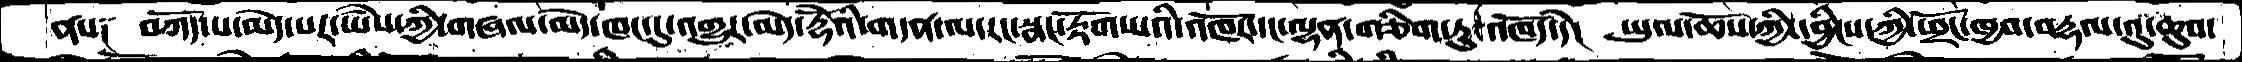ནས༑  བཀོད་པ་མེད་པར་ཡཻས་ཀྱི་གཞལ་མེད་ཁང་དུ་འགྱུར་མེད་རྡོེའི་གདན་ལ་རང་སྣང་རྟོག་པའི་འཁོར་དང་ལྷན་གཅིག་ཏུ་འཁོད་དེ།  ཡུལ་ཆོས་ཀྱི་དབྱིངས་ཀྱི་ཕྲོང་ཁྱབ་བརྡལ་འུ་ཆུབ་
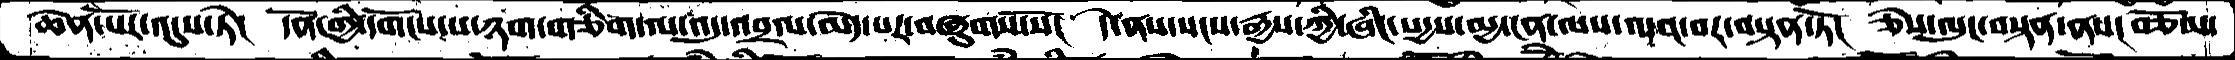ཆེན་པོར་འདུས་ཏེ་།  དོན་གྱི་དགོངས་པ་ཉག་གཅིག་ལ་འདུ་བྲལ་མེད་པར་བཞུགས་སོ།  དེ་ནས་སངས་རྒྱས་ཀྱི་ཞིང་སདྱས་མྱ་ངན་ལས་འདའ་བར་བསྟན་ཏེ་།  ཅེས་ལུང་བསྟན་ནས། བཅོམ་
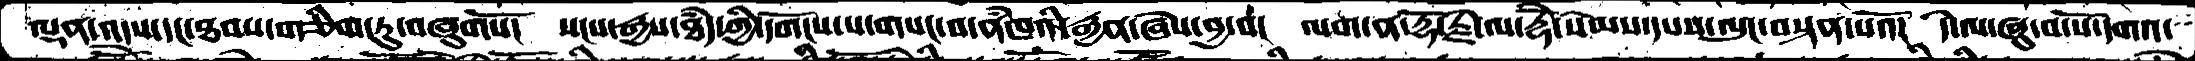ལྡན་འདས་དང་ཐབས་གཅིག་ཏུ་བཞུགསོ་།  སངས་རྒྱས་ཐཾད་ཀྱི་དགོངས་པ་གསང་བ་ནཾཁའི་རྒྱན་ཞེས་བྱ་བ།  ལག་ན་རྡོ་རྗེ་ལ་རྡོེ་སེམས་དཔས་ལུང་བསྟན་པའོ་།  དེ་ལ་ཞུ་བ་པོ་དགའ་
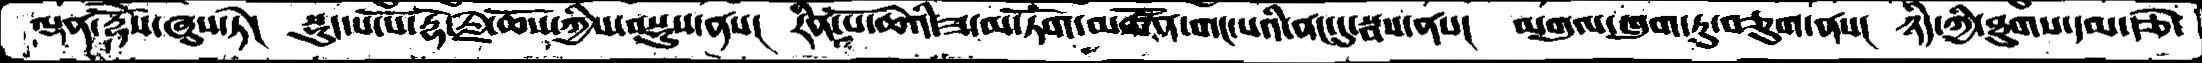ལྡན་རྡོེས་ཞུས་ཏེ།  སྡུད་པ་པོ་རྡོ་རྗེ་ཆོས་ཀྱིས་བསྡུས་ནས།  རིན་པོ་ཆེའི་ཟ་མ་ཏོག་མཚོན་གང་པའི་ནང་དུ་སྦས་ནས།  མགུལ་ཁུག་ཏུ་བཅུག་ནས།  ཉིད་ཀྱི་ཐུགས་དམ་རྩེ་
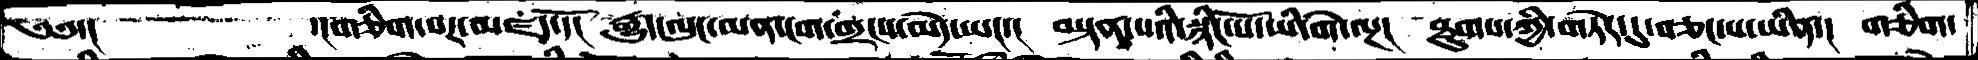༄༅་།      ་།གཅིག་པར་མཛད་དོ་།   རྒྱུད་ལུང་མན་ངག་གྲངས་མེད་ཡང་།  བསྟན་པའི་སྙིང་པོ་ཡི་གེ་ལྔ།  ཐུགས་ཀྱི་གཏེར་དུ་བཅང་པ་ཡན་།  གཅིག་
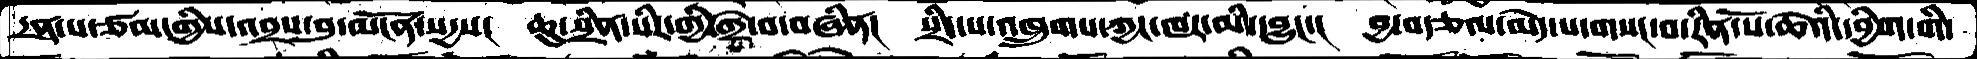དྲན་པ་ཙམ་གྱིས་འབྲས་བུ་མངོན་སདྱས།  ཆུ་སྲིན་སིར་གྱི་གྲེ་བ་བཞིན།  སྲིད་པ་འཁྲུགས་ཀྱང་ཁར་མི་བྱུང་།  བྱ་བརྩལ་མེད་པ་གསང་བ་རིན་པོ་ཆེའི་དབྱིག་གི་
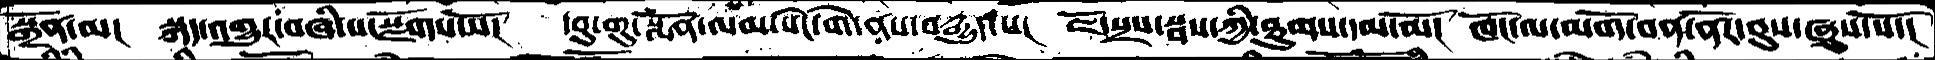སྒྲོན་མ།  སྐད་འགྱུར་བཞི་པ་སྫོགས་སོ།  དབུ་གུ་སྨོན་ལམ་སེང་གེ་ནས་བརྒྱུད་པ།  ཇོ་སྲས་སྦས་ཀྱི་ཐུགས་དམ་མོ།  ཁོང་ལ་མགོ་བན་ནོར་བུས་ཞུས་སོ་།
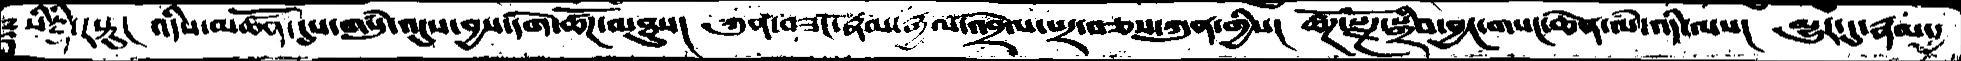༈ སིདྡྷི་རསྟུ།  འདིས་མཚོན་དུས་གསུཾ་འདུས་བྱས་དགེ་ཚོཌ་མཐུས།  ཀུན་བཟང་རྣམ་རྒྱལ་འབྲེལ་པར་བཅས་ཀུན་གྱིས།  ཚོཌ་སྫོཌ་སྒྲིབ་བྱང་གསང་ཆེན་ལཾ་འདི་ལས།  མྱུར་དུ་རྣམ་དྱ
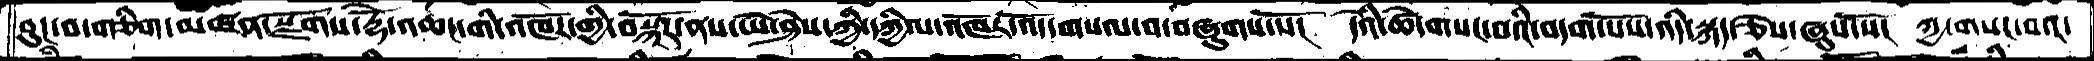བུང་བ་གཅིག་མཁན་སྫོགས་རྡོེ་འཆང་གི་འཁོར་གྱི་བསྐོར་ནས་ཡེ་ཤེས་ཀྱི་དཀྱིལ་འཁོར་འོད་གསལ་བ་བཞུགས་སོ་།  དེའི་ཚེ་གསང་བའི་བདག་པོས་འདི་སྐད་ཅེས་ཞུས་སོ།  ཀྱ་གསང་བའ
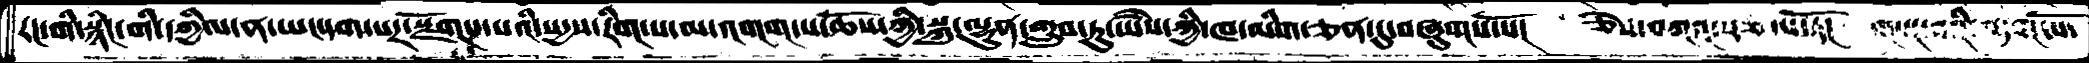རང་གི་སྙིང་གི་དཀྱིལ་ན་ཡང་དག་པར་སྫོགས་པའི་སདྱས་རིག་པ་ལ་འགག་པ་ཆོས་ཀྱི་སྐུ་ལྷུན་གྲུབ་ཏུ་ཡཻས་ཀྱི་ཁ་མིག་ཅན་དུ་བཞུགས་སོ།  ཅེས་བཀའ་སྩལ་ཏོ།  གསང་བའི་བདག་པོ་
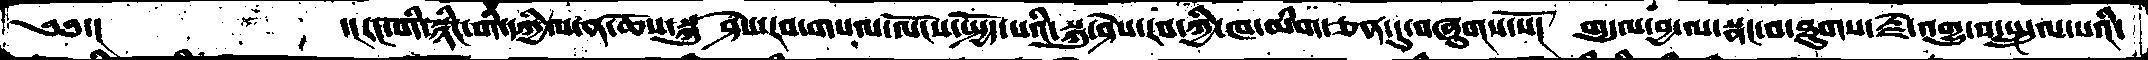༄༅་།     ་།རང་གི་སྙིང་གི་དཀྱིལ་ན་ཆོས་སྐུ་ཤེས་རབ་གསལ་ལོངས་སྤྱོད་པའི་སྐུ་ཤེས་རབ་ཀྱི་ཁ་མིག་ཅན་དུ་བཞུགས་སོ། གདུལ་བྱ་ལ་སྣང་བ་ཐུགས་རྗེ་འགྱུ་བ་སྤྲུལ་པའི་
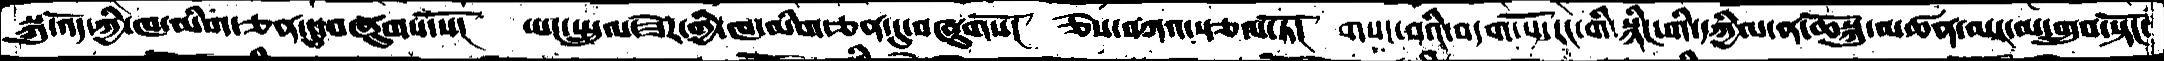སྐུ་འོད་ཀྱི་ཁ་མིག་ཅན་དུ་བཞུགས་སོ།  ཡང་སྤྲུལ་ཟེར་གྱི་ཁ་མིག་ཅན་དུ་བཞུགསོ།  ཅེས་བཀའ་སྩལ་ཏོ།  གསང་བའི་བདག་པོ་རང་གི་སྙིང་གི་དཀྱིལ་ན་ཆོསྐུ་མཚན་མར་མ་གྲུབ་སྟོང་
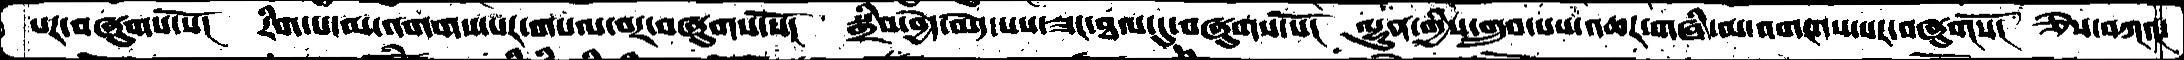པར་བཞུགས་སོ།  རིག་པ་མ་འགགས་པར་གསལ་བར་བཞུགས་སོ།  སྒྲིབ་བྱེད་མེད་པས་ཟང་ཐལ་དུ་བཞུགས་སོ།  ལྷུན་གྱིས་གྲུབ་པས་འཆར་གཞི་མ་འགགས་པར་བཞུགསོ།  ཅེས་བཀའ་
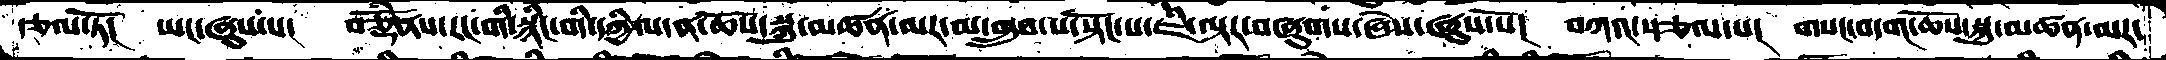རྩལ་ཏོ།  ཡང་ཞུས་པ།  བཅྡོཾནས་རང་གི་སྙིང་གི་དཀྱིལ་ན་ཆོས་སྐུ་མཚན་མར་མ་གྲུབ་པ་སྟོང་པ་ཇི་ལྟར་བཞུགས་ཞེས་ཞུས་སོ།  བཀའ་སྩལ་པ།  གསང་བདག་ཆོས་སྐུ་མཚན་མར་
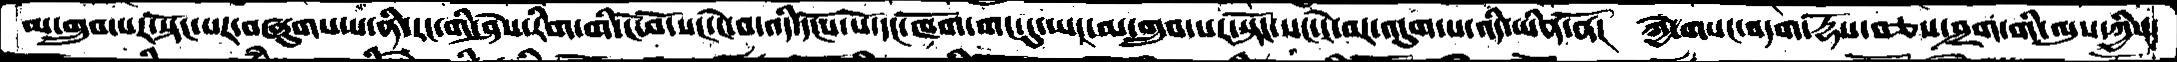མ་གྲུབ་པར་སྟོང་པར་བཞུགས་པ་ནི་རང་གི་ཤེས་རིག་གི་ངོ་བོ་སང་ངེ་བ་འདི་དངོས་པོ་དང་ཁོག་གང་དུ་ཡང་མ་གྲུབ་པར་སྟོང་སང་ངེ་བར་འདུག་པ་འདི་ཡིན་ནོ།  ཀྱེ་གསང་བདག་རྡོས་བཅས་ཤྲག་གི་ལུས་ཀྱིས་
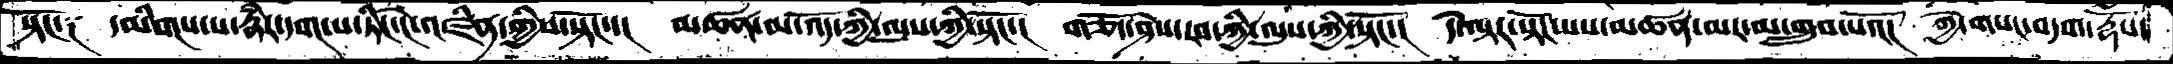སྟོང་༑  དམིགས་པ་རྣཾར་དག་པ་ཏིང་ངེ་འཛིན་གྱིས་སྟོང་་།  མཚན་མ་འོད་ཀྱི་ལུས་ཀྱི་སྟོང་།  གཅོད་ཤེར་རབ་ཀྱི་ལུས་ཀྱི་སྟོང་།  དེ་ལྟར་སྟོང་པས་མཚན་མར་མ་གྲུབ་པའོ།  ཀྱེ་གསང་བདག་རྡོས་
